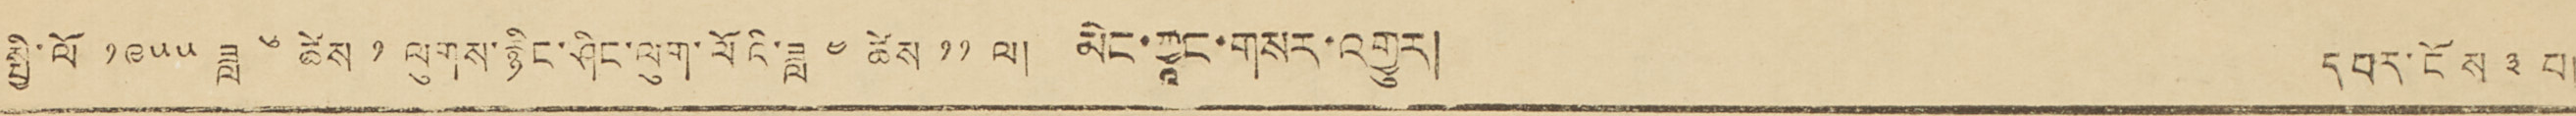སྤྱི་ལོ ༡༩༥༥ ཟླ ༦ ཚེས ༡ ལུགས་རྙིང་ཤིང་ལུག་ལོའི་ཟླ ༤ ཚེས ༡༡ ལ། མིང་ཀྱཱང་གསར་འགྱུར། དཔར་ངོས་ ༣ པ།
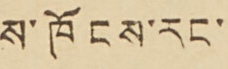ས་ཁོངས་རང་
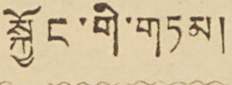སྐྱོང་གི་གཏམ།
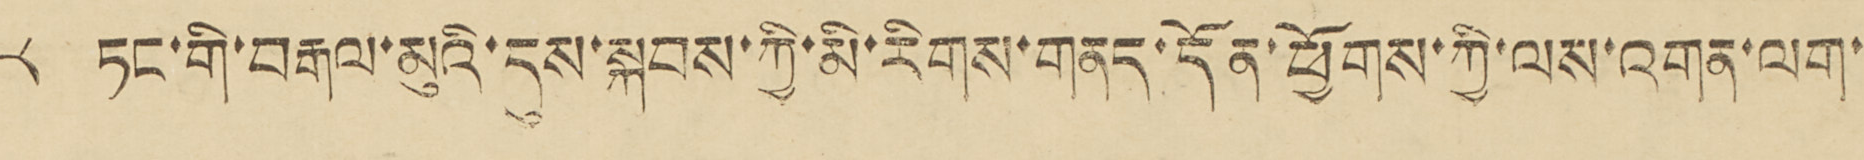༨ ཏང་གི་བརྒལ་མུའི་དུས་སྐབས་ཀྱི་མི་རིགས་གནད་དོན་ཕྱོགས་ཀྱི་ལས་འགན་ལག་
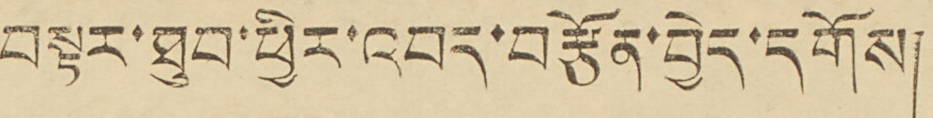བསྟར་ཐུབ་ཕྱིར་འབད་བརྩོན་བྱེད་དགོས།
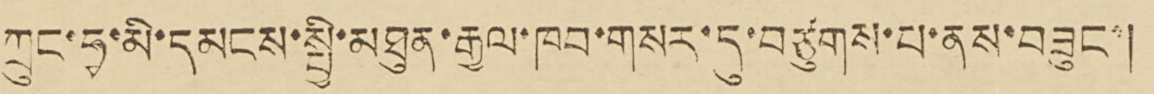ཀྲུང་ཧྭ་མི་དམངས་སྤྱི་མཐུན་རྒྱལ་ཁབ་གསར་དུ་བཙུགས་པ་ནས་བཟུང་།
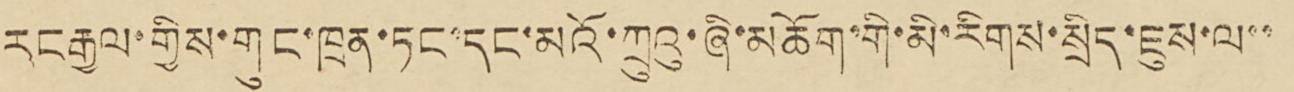རང རྒྱལ་གྱིས་གུང་ཁྲན་ཏང་དང་མའོ་ཀྲུའུ་ཞི་མཆོག་གི་མི་རིགས་སྲིད་ཇུས་ལ་་
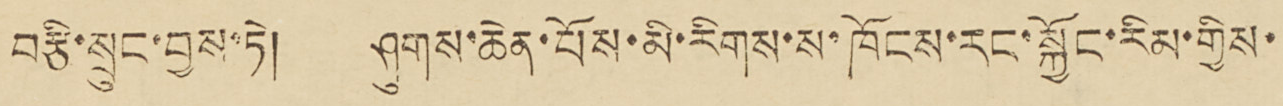བརྩི་སྲུང་བྱས་ཏེ། ཤུགས་ཆེན་པོས་མི་རིགས་ས་ཁོངས་རང་སྐྱོང་རིམ་གྱིས་
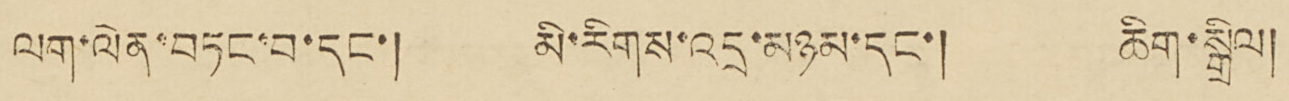ལག་ལེན་བཏང་བ་དང་། མི་རིགས་འདྲ་མཉམ་དང་། ཆིག་སྒྲིལ།
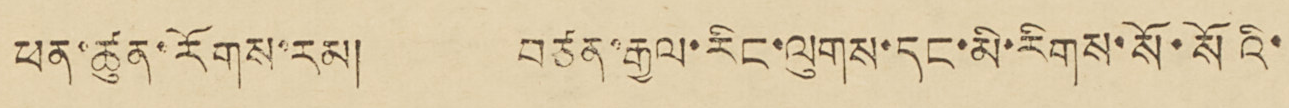ཕན་ཚུན་རིགས་རམ། བཙན་རྒྱལ་རིང་ལུགས་དང་མི་རིགས་སོ་སོའི་
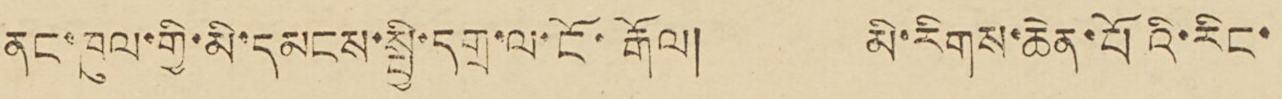ནང་ཁུལ་གྱི་མི་དམངས་སྤྱི་དགྲ་ལ་ངོ་རྒོལ། མི་རིགས་ཆེན་པོའི་རིང་
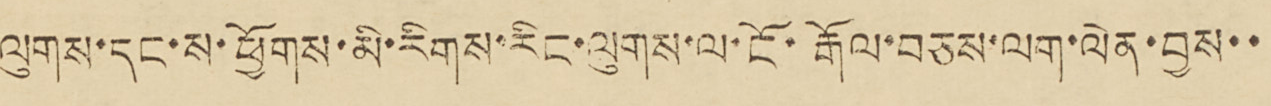ལུགས་དང་ས་ཕྱོགས་མི་རིགས་རིང་ལུགས་ལ་ངོ་རྒོལ་བཅས་ལག་ལེན་བྱས་་
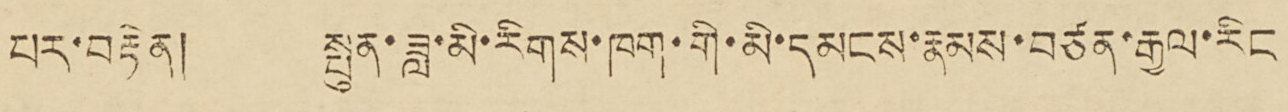པར་བརྟེན། སྤུན་ཟླ་མི་རིགས་ཁག་གི་མི་དམངས་རྣམས་བཙན་རྒྱལ་རིང
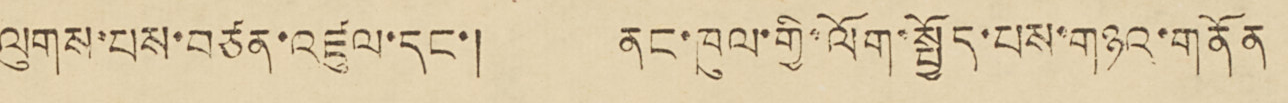ལུགས་པས་བཙན་འཛུལ་དང་། ནང་ཁུལ་གྱི་ལོག་སྤྱོད་པས་གཉའ་གནོན
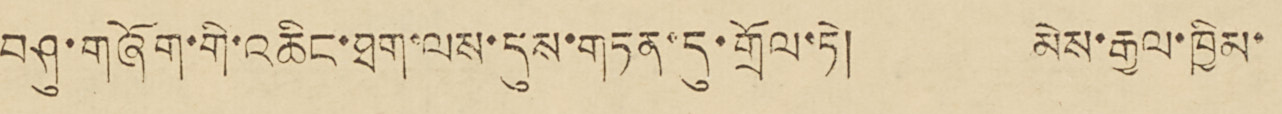བཤུ་གཞོག་གི་འཆིང་ཐག་ལས་དུས་གཏན་དུ་གྲོལ་ཏེ། མེས་རྒྱལ་ཁྱིམ་
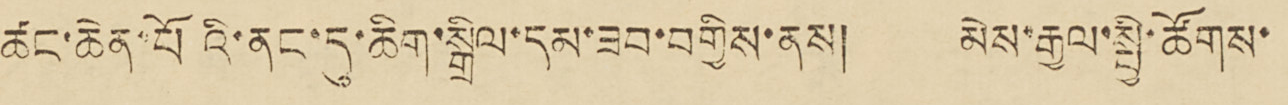ཚང་ཆེན་པོའི་ནང་དུ་ཆིག་སྒྲིལ་དམ་ཟབ་བགྱིས་ནས། མེས་རྒྱལ་སྤྱི་ཚོགས་
